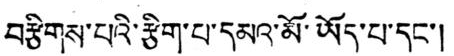བརྩིགས་པའི་རྩིག་པ་དམའ་མོ་ཡོད་པ་དང་།
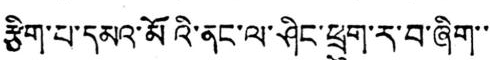རྩིག་པ་དམའ་མོའི་ནང་ལ་ཤིང་ཕྲུག་ར་བ་ཞིག་་་
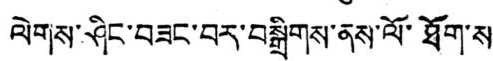ལེགས་ཤིང་བཟང་བར་བསྒྲིགས་ནས་ལོ་ཐོག་ས་་
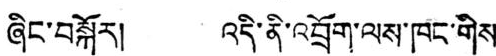ཞིང་བསྐོར། འདི་ནི་འབྲོག་ལས་ཁང་གིས་
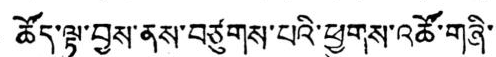ཚོད་ལྟ་བྱས་ནས་བཙུགས་པའི་ཕྱུགས་འཚོ་གཞི་་་
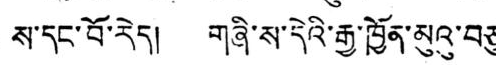ས་དང་བོ་རེད། གཞི་ས་དེའི་རྒྱ་ཁྱོན་མུའུ་བཅུ་
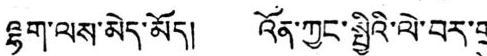ལྷག་ལས་མེད་མོད། འོན་ཀྱང་སྤྱིའི་ལེ་བར་གྲུ་
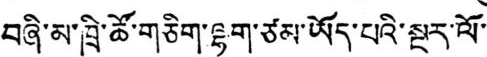བཞི་མ་ཁྲི་ཚོ་གཅིག་ལྷག་ཙམ་ཡོད་པའི་སྔར་ལོ་་
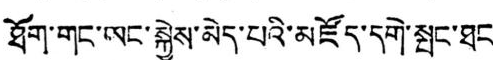ཐོག་གང་ཡང་སྐྱེས་མེད་པའི་མཛོད་དགེ་སྤང་ཐང་
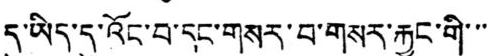དུ་ཡིད་དུ་འོང་བ་དང་གསར་བ་གསར་རྐྱང་གི་་་་
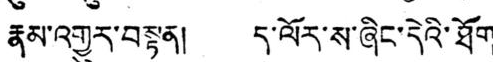རྣམ་འགྱུར་བསྟན། ད་ལོར་ས་ཞིང་དེའི་ཐོག་
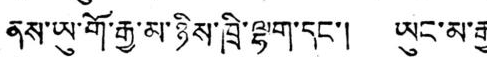ནས་ཡུ་གོ་རྒྱ་མ་ཉིས་ཁྲི་ལྷག་དང་། ཡུང་མ་རྒྱ་
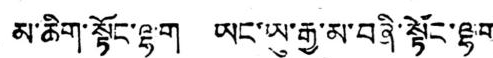མ་ཆིག་སྟོང་ལྷག ཡང་ཡུ་རྒྱ་མ་བཞི་སྟོང་ལྷག་
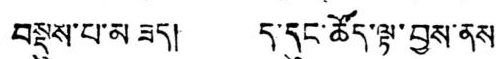བསྡུས་པ་མ ཟད། ད་དུང་ཚོད་ལྟ་བྱས་ནས་
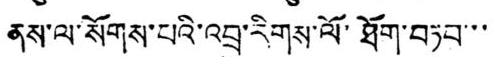ནས་ལ་སོགས་པའི་འབྲུ་རིགས་ལོ་ཐོག་བཏབ་་་་
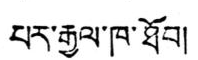པར་རྒྱལ་ཁ་ཐོག།
